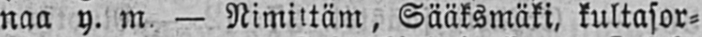naa y. m — Nimittäm, Sääksmäki, kultasor-
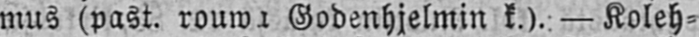mus (past. rouwa Godenhjelmin k.). — Koleh-
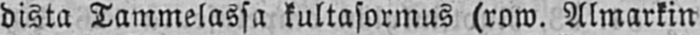dista Tammelassa kultasormus (row. Almarkin
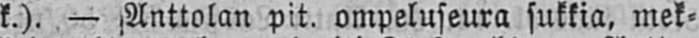k.). — Anttolan pit. ompeluseura sukkia, mek-
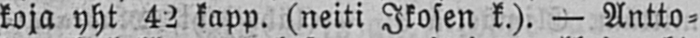koja yht 42 kapp. (neiti Ikosen k.). — Antto-
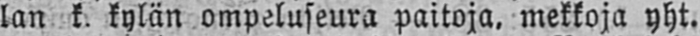lan k. kylän ompeluseura paitoja, mekkoja yht.
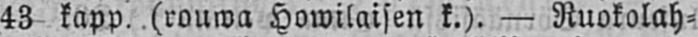43 kapp. (rouwa Howilaisen k.). — Ruokolah-
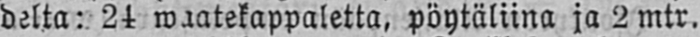delta: 24 waatekappaletta, pöytäliina ja 2 mtr.
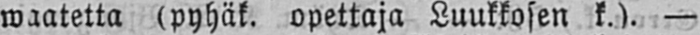waatetta (pyhäk, opettaja Luukkosen k.). —
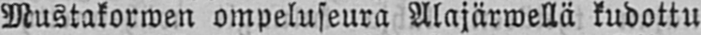Mustakorwen ompeluseura Alajärwellä kudottu
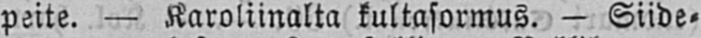peite. — Karoliinalta kultasormus. — Siide-
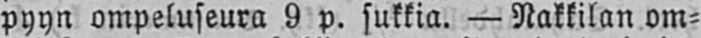pyyn ompeluseura 9 p. sukkia. — Nakkilan om-
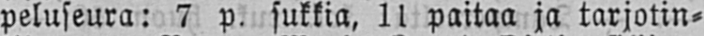peluseura: 7 p. sukkia, 11 paitaa ja tarjotin-
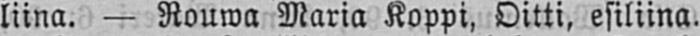liina. — Rauwa Maria Koppi, Oitti, esiliina.
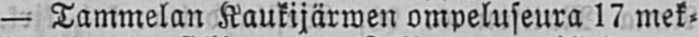— Tammelan Kaukijärwen ompeluseura 17 mek-
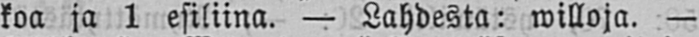koa ja 1 esiliina. — Lahdesta: willoja. —
